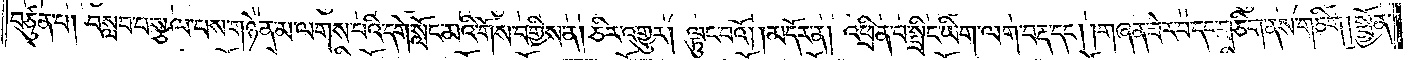བཙུན་པ། བསླབ་པ་སྩལ་པས་གཉེན་མ་ལགས་པའི་དགེ་སློང་མའི་གོས་བགྱིས་ན། ཅིར་འགྱུར། ལྟུང་བའོ།    །མདོར་ན། འཕྲིན་པ་སྤྲིང་ཡིག་ལག་བརྡ་དང༌། །གཞན་ཟེར་བ་དང་གཅིག་ནས་གཅིག །སྨྱོན་
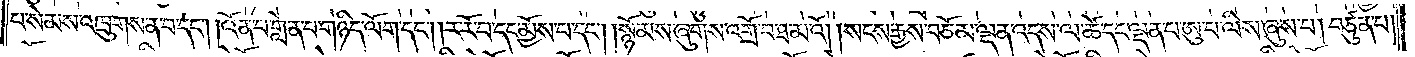པ་སེམས་འཁྲུགས་ན་བ་དང༌། །འོན་པ་གླེན་པ་གཉིད་ལོག་དང༌། །ར་རོ་བ་དང་མྱོས་པ་དང༌། །སྙོམས་ཞུགས་འགྲོ་བ་ཐ་མའོ། །སངས་རྒྱས་བཅོམ་ལྡན་འདས་ལ་ཚེ་དང་ལྡན་པ་ཨུ་པ་ལིས་ཞུས་པ། བཙུན་པ།
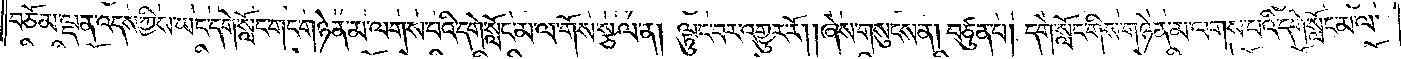བཅོམ་ལྡན་འདས་ཀྱིས་ཡང་དགེ་སློང་གང་གཉེན་མ་ལགས་པའི་དགེ་སློང་མ་ལ་གོས་སྩལ་ན། ལྟུང་བར་འགྱུར་རོ། །ཞེས་གསུངས་ན། བཙུན་པ། དགེ་སློང་གིས་གཉེན་མ་ལགས་པའི་དགེ་སློང་མ་ལ་
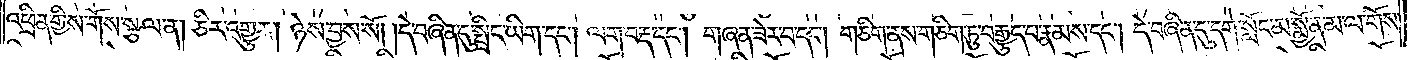འཕྲིན་གྱིས་གོས་སྩལ་ན། ཅིར་འགྱུར། ཉེས་བྱས་སོ། །དེ་བཞིན་དུ་སྤྲིང་ཡིག་དང༌། ལག་བརྡ་དང༌། གཞན་ཟེར་བ་དང༌། གཅིག་ནས་གཅིག་ཏུ་བརྒྱུད་པ་རྣམས་དང༌། དེ་བཞིན་དུ་དགེ་སློང་མ་སྨྱོན་མ་ལ་གོས་
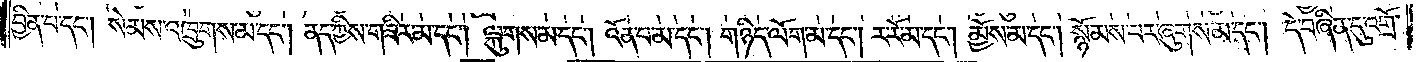བྱིན་པ་དང༌། སེམས་འཁྲུགས་མ་དང༌། ནད་ཀྱིས་གཟིར་མ་དང༌། ལྐུགས་མ་དང༌། འོན་པ་མ་དང༌། གཉིད་ལོག་མ་དང༌། ར་རོ་མ་དང༌། མྱོས་མ་དང༌། སྙོམས་པར་ཞུགས་མ་དང༌། དེ་བཞིན་དུ་འགྲོ་
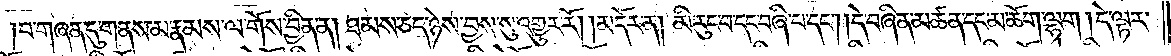བ་གཞན་དུ་གནས་མ་རྣམས་ལ་གོས་བྱིན་ན། ཐམས་ཅད་ཉེས་བྱས་སུ་འགྱུར་རོ། །མདོར་ན། མི་རུང་བ་དང་བཞི་པ་དང༌། །དེ་བཞིན་མཚན་དང་མཆོག་ལྷག །དེ་ལྟར་
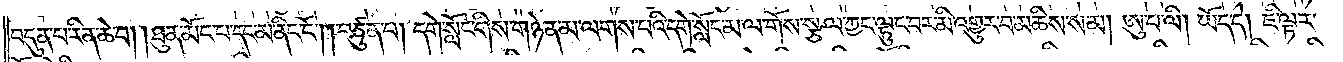བདུན་པ་རིན་ཆེ་བ། །ཐུན་མོང་བ་དང་མ་ནིང་ངོ༌། །བཙུན་པ། དགེ་སློང་གིས་གཉེན་མ་ལགས་པའི་དགེ་སློང་མ་ལ་གོས་སྩལ་ཀྱང་ལྟུང་བར་མི་འགྱུར་བ་མཆིས་སམ། ཨུ་པ་ལི། ཡོད་དེ། ཇི་ལྟར་
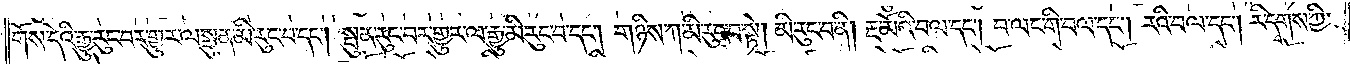གོས་དེའི་རྒྱུ་རུང་བར་གྱུར་ལ་སྤུན་མི་རུང་བ་དང༌། སྤུན་རུང་བར་གྱུར་ལ་རྒྱུ་མི་རུང་བ་དང༌། གཉིས་ཀ་མི་རུང་བ་སྟེ། མི་རུང་བ་ནི། རྔ་མོའི་བལ་དང༌། བ་ལང་གི་བལ་དང༌། རའི་བལ་དང༌། རི་དྭགས་ཀྱི་
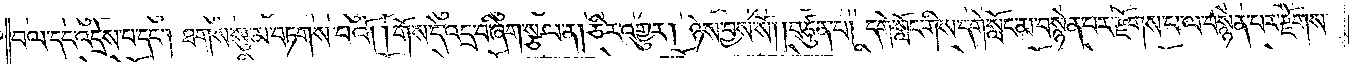བལ་དང་འདྲེས་པ་དང༌། ཐགས་སུ་མ་བཏགས་པའོ། །གོས་དེ་འདྲ་བ་ཞིག་སྩལ་ན། ཅིར་འགྱུར། ཉེས་བྱས་སོ། །བཙུན་པ། དགེ་སློང་གིས་དགེ་སློང་མ་བསྙེན་པར་རྫོགས་པ་ལ་བསྙེན་པར་རྫོགས་
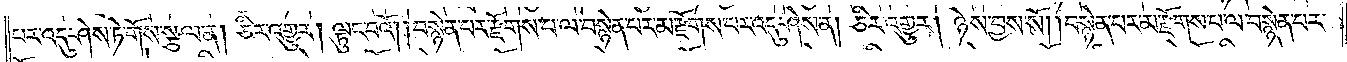པར་འདུ་ཤེས་ཏེ་གོས་སྩལ་ན། ཅིར་འགྱུར། ལྟུང་བའོ། །བསྙེན་པར་རྫོགས་པ་ལ་བསྙེན་པར་མ་རྫོགས་པར་འདུ་ཤེས་ན། ཅིར་འགྱུར། ཉེས་བྱས་སོ། །བསྙེན་པར་མ་རྫོགས་པ་ལ་བསྙེན་པར་
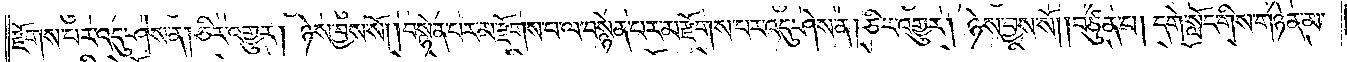རྫོགས་པར་འདུ་ཤེས་ན། ཅིར་འགྱུར། ཉེས་བྱས་སོ། །བསྙེན་པར་མ་རྫོགས་པ་ལ་བསྙེན་པར་མ་རྫོགས་པར་འདུ་ཤེས་ན། ཅིར་འགྱུར། ཉེས་བྱས་སོ། །བཙུན་པ། དགེ་སློང་གིས་གཉེན་མ་
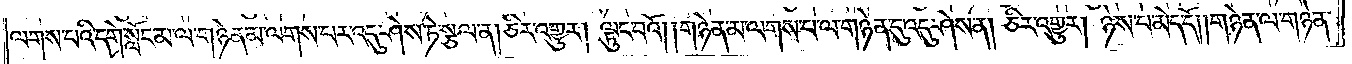ལགས་པའི་དགེ་སློང་མ་ལ་གཉེན་མ་ལགས་པར་འདུ་ཤེས་ཏེ་སྩལ་ན། ཅིར་འགྱུར། ལྟུང་བའོ། །གཉེན་མ་ལགས་པ་ལ་གཉེན་དུ་འདུ་ཤེས་ན། ཅིར་འགྱུར། ཉེས་པ་མེད་དོ། །གཉེན་ལ་གཉེན་
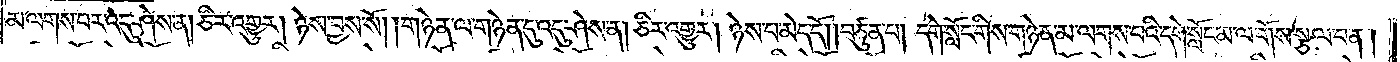མ་ལགས་པར་འདུ་ཤེས་ན། ཅིར་འགྱུར། ཉེས་བྱས་སོ། །གཉེན་ལ་གཉེན་དུ་འདུ་ཤེས་ན། ཅིར་འགྱུར། ཉེས་པ་མེད་དོ། །བཙུན་པ། དགེ་སློང་གིས་གཉེན་མ་ལགས་པའི་དགེ་སློང་མ་ལ་གོས་སྩལ་པ་ན།
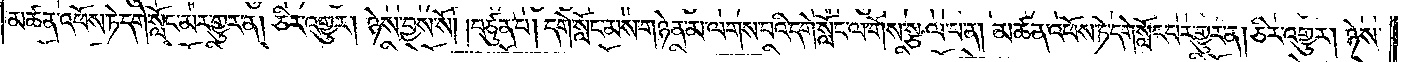མཚན་འཕོས་ཏེ་དགེ་སློང་མར་གྱུར་ན། ཅིར་འགྱུར། ཉེས་བྱས་སོ། །བཙུན་པ། དགེ་སློང་མས་གཉེན་མ་ལགས་པའི་དགེ་སློང་ལ་གོས་སྩལ་པ་ན། མཚན་འཕོས་ཏེ་དགེ་སློང་བར་གྱུར་ན། ཅིར་འགྱུར། ཉེས་
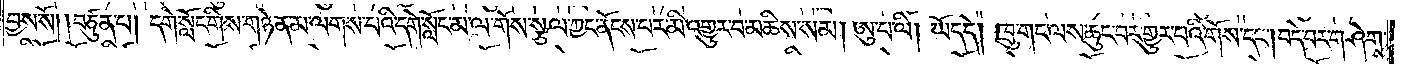བྱས་སོ། །བཙུན་པ། དགེ་སློང་གིས་གཉེན་མ་ལགས་པའི་དགེ་སློང་མ་ལ་གོས་སྩལ་ཀྱང་ནོངས་པར་མི་འགྱུར་བ་མཆིས་སམ། ཨུ་པ་ལི། ཡོད་དེ། ཁྲུ་གང་ལས་ཆུང་བར་གྱུར་པའི་གོས་དང༌། བདེ་བར་གཤེགས་
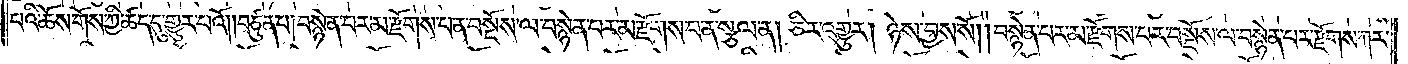པའི་ཆོས་གོས་ཀྱི་ཚད་དུ་གྱུར་པའོ། །བཙུན་པ། བསྙེན་པར་མ་རྫོགས་པ་ན་བསྔོས་ལ་བསྙེན་པར་མ་རྫོགས་པ་ན་སྩལ་ན། ཅིར་འགྱུར། ཉེས་བྱས་སོ། །བསྙེན་པར་མ་རྫོགས་པར་བསྔོས་ལ་བསྙེན་པར་རྫོགས་ཀར་
